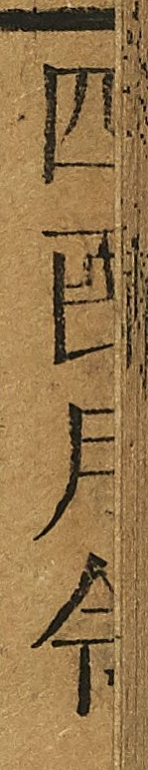四民月令
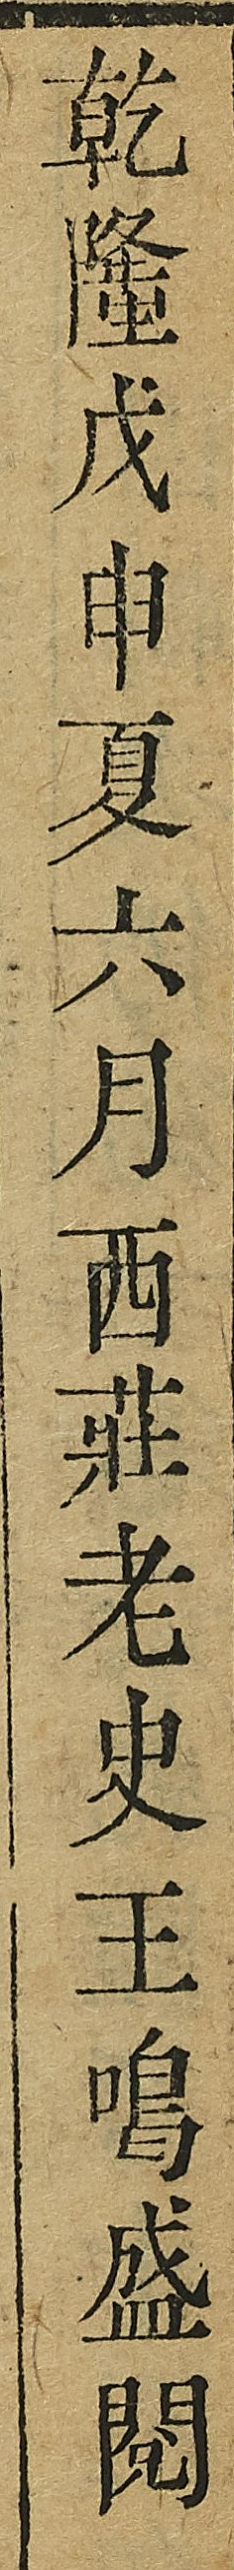乾隆戊申夏六月西莊老史王鳴盛閱
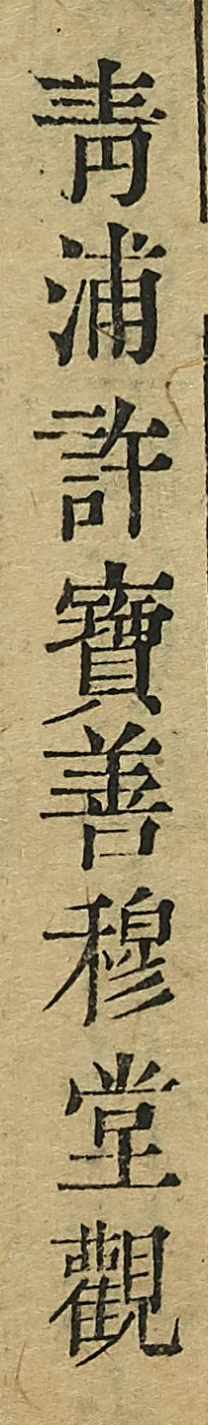靑浦許寶善穆堂觀
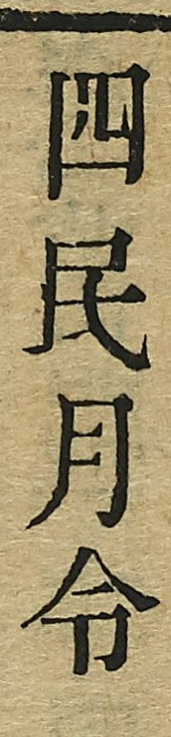四民月令
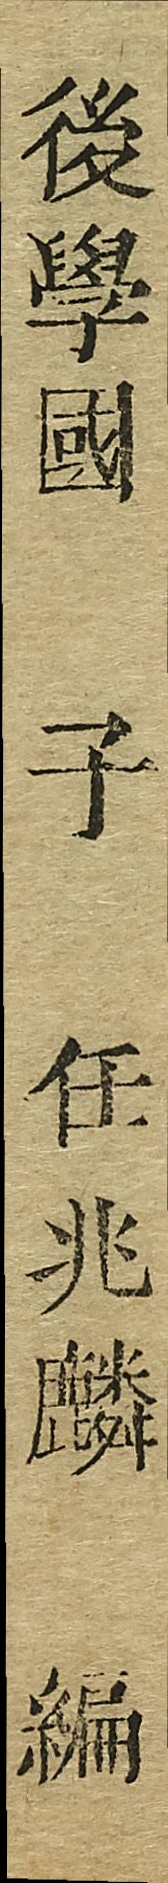後學國 子 任兆麟 編
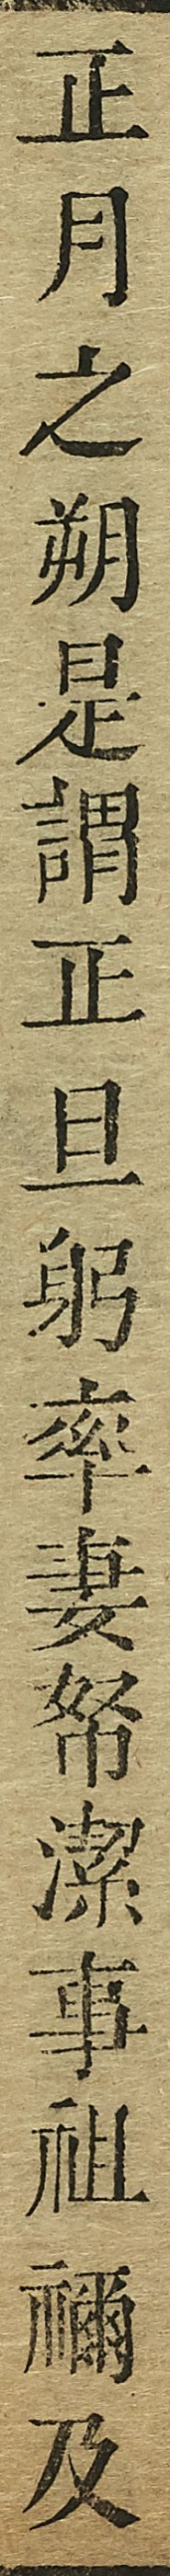正月之朔是謂正旦躬率妻帑潔事祖麟及
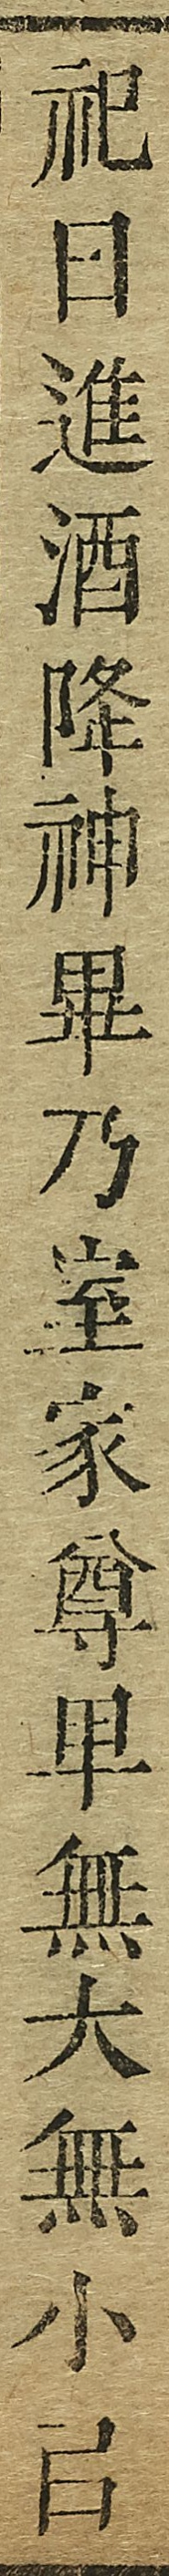祀日進酒降神畢乃室家尊卑無大無小呂
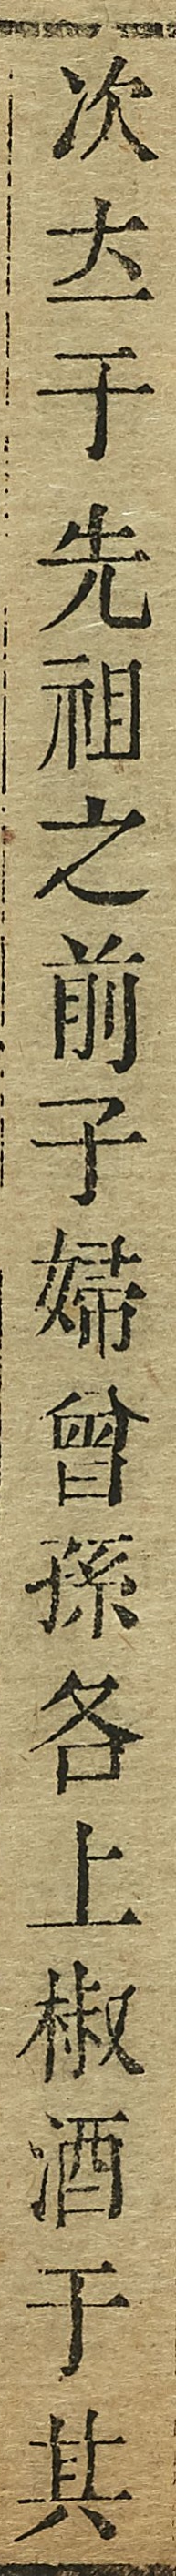次大子先祖之前子婦曾孫各上椒酒于其
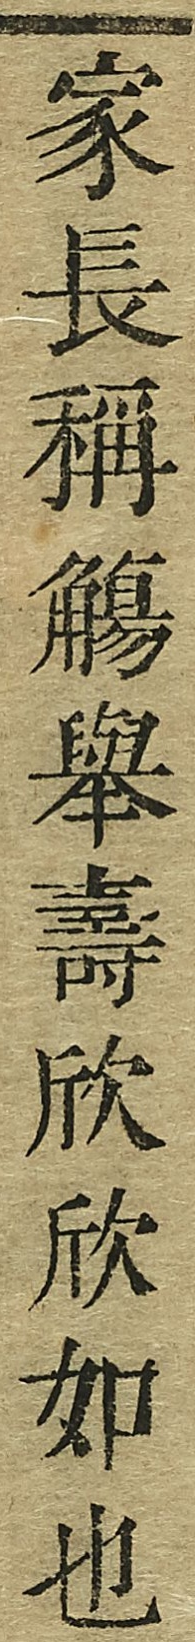家長稱觴舉壽欣欣如也
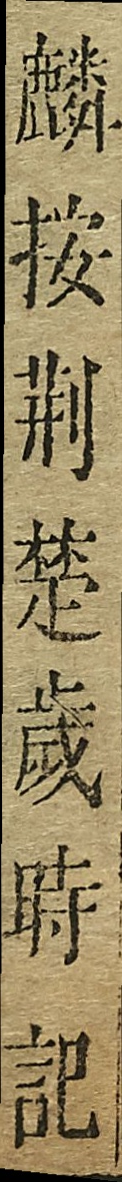麟按荊楚歲時記
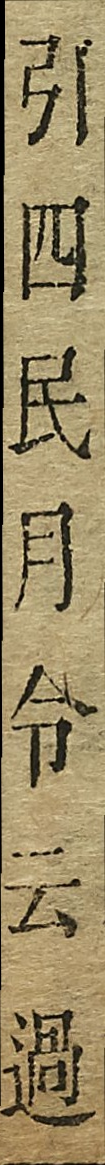引四民月令云過
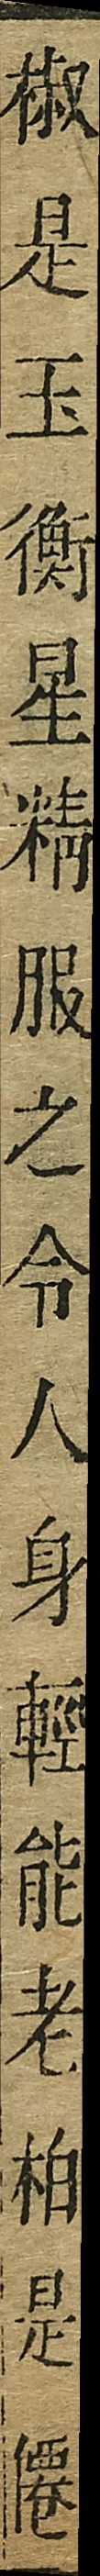椒是玉衡星精服之令人身輕能老柏是踡
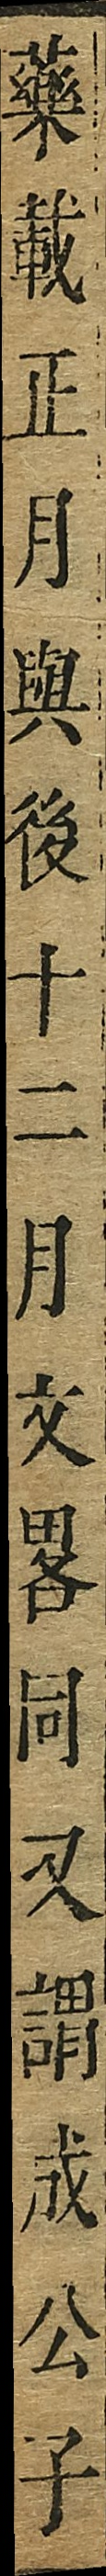藥載正月與後十二月交晷同又謂成公子
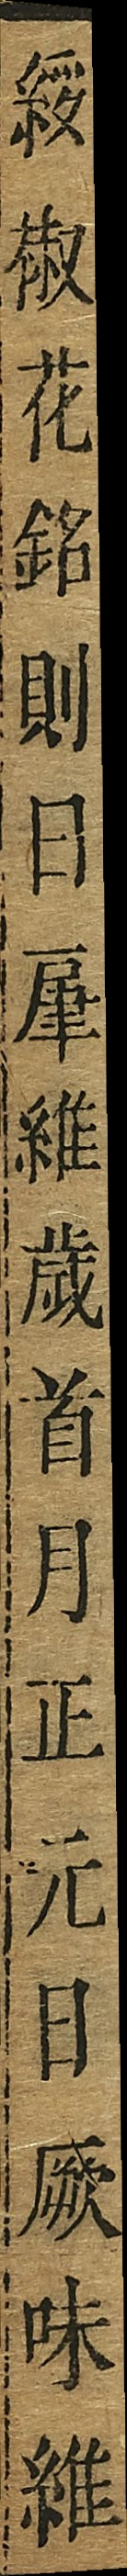綏椒花銘則曰犀維歲首月正元日厥味維
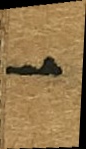一
